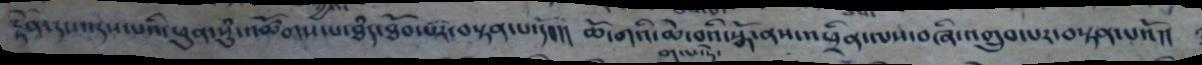རྟེན་དང་འདས་པའི་ཕུན་སུཾ་འཚོགས་པ་ཐཾད་ཐོབ་པར་བསྟན་པ་དང་།།  ཆོ་གའི་ཆེ་བའི་སྒོ་ནས་འཕྲིན་ལས་བཞི་འགྲུབ་པར་བསྟན་པའོ།།
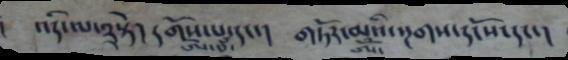།  འདི་ལ་༢སྟེ།  དགོས་པ་དང་།  གཏོར་མའི་སྔགས་དངོས་དང་།
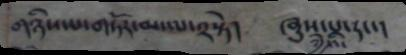གཉིས་པ་གཏོར་མ་ལ་༢སྟེ།  ཞུས་པ་དང་།
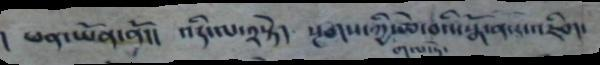།  ཕན་ཡོན་ནོ།།  འདི་ལ་༢སྟེ།  སྔགས་ཀྱི་ཆེ་བའི་སྒོ་ནས་འཇིག་
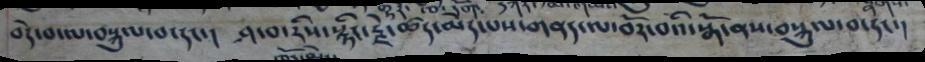བདེ་བ་ལ་བསྐུལ་བ་དང་།  ཤ་བ་རིས་སྙིང་རྗེ་ཚད་མེད་པས་གནད་ལ་བོར་བའི་སྒོ་ནས་བསྐུལ་བ་དང་།
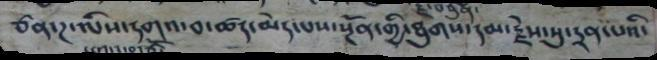ཙན་ཌ་ལིས་དགའ་བ་ཚད་མེད་པས་སྔོན་གྱི་ཐུགས་དམ་རྗེས་སུ་དྲན་པའི་
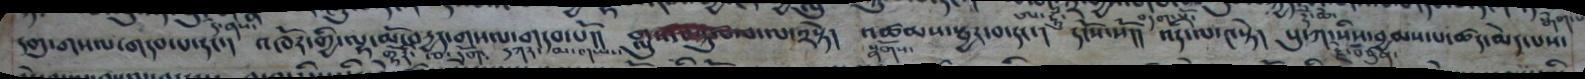དགུ་གསལ་གདབ་པ་དང་། འཁོར་གྱི་ལྷ་མོ་བདྱད་གསལ་གདབ་པོ།།  གླུས་བསྐུལ་བ་ལ་༢སྟེ།  འཚམས་སྦྱར་བ་དང་། དངོས་སོ།།  འདི་ལ་༤སྟེ།  སུ་ཀ་སིས་རྗེ་བཙུན་བྱམས་པ་ཚད་མེད་པས་
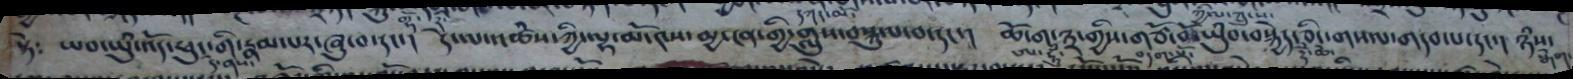སྟེ༴  ཡབ་ཡུཾ་འོད་ཕུང་གི་རྣམ་པར་ཞུ་བ་དང་།  དེ་ལ་འཚཾས་ཀྱི་ལྷ་མོ་༤ས་མྱ་ངན་གྱི་གླུས་བསྐུལ་བ་དང་།  ཆོ་ག་༣་གྱིས་གཙོ་བོ་ཡུཾབ་བསྐྱེད་ཅིང་གསལ་གདབ་པ་དང་།  ཉཾས་
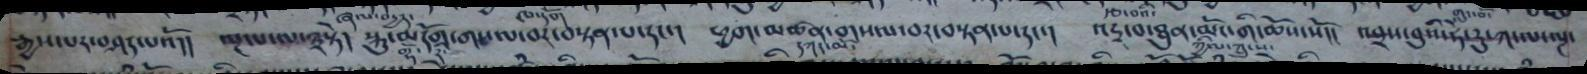རྒྱས་པར་བཤད་པའོ།།  ལྔ་པ་ལ་༣སྟེ།  སྐུ་མདོག་གསལ་བར་བསྟན་པ་དང་།  ཕྱག་མཚན་གསལ་བར་བསྟན་པ་དང་།  འདྲ་བ་ཐུན་མོང་གི་ཆོས་སོ།།  འབྲས་བུའི་ཧེ་རུ་ཀ་ལས་ལྔ་
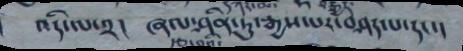འདི་ལ་༢།  ཞལ་ཤིན་ཏུ་རྒྱས་པར་བཤད་པ་དང་།
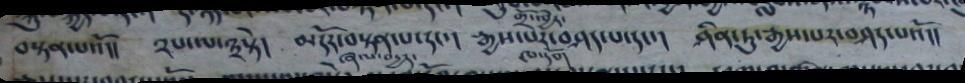བསྟན་པའོ།།  ༢པ་ལ་༣སྟེ།  མདོར་བསྟན་པ་དང་།   རྒྱས་པར་བཤད་པ་དང་།   ཤིན་ཏུ་རྒྱས་པར་བཤད་པའོ།།
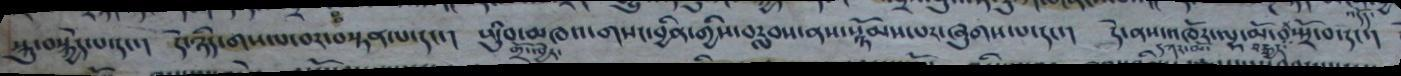སྐུ་བསྐྱེད་པ་དང་།  དེ་ཉིད་གསལ་བར་བསྟན་པ་དང་།  ཡུཾབ་མཁའ་གསང་བྱིན་གྱིས་བརླབས་ནས་སྙོམས་པར་ཞུགས་པ་དང་།  དེ་ནས་འཁོར་ལྷ་མོ་བ་དཀར་མོ་བརྒྱད་སྤྲོ་བ་དང་།
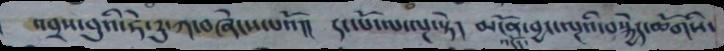འབྲས་བུའི་ཧེ་རུ་ཀ་བཞེངས་པའོ།།  དང་པོ་ལ་ལྔ་སྟེ།  མངོན་བྱང་ལྔའི་བསྐྱེད་ཆོགིས་
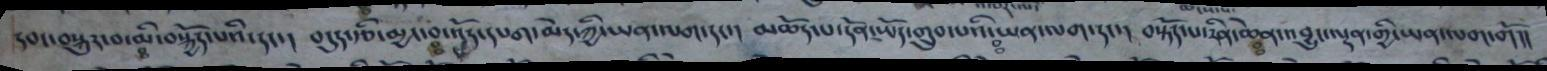དབང་བསྐུར་བ་མི་བསྐྱོད་པའི་དང་། བདུད་རྩི་མྱང་བ་འོད་དཔག་མེད་ཀྱི་ཡན་ལག་དང་། མཆོད་པ་དོན་ཡོད་གྲུབ་པའི་ཡན་ལག་དང་། བསྟོད་པ་རིན་ཆེན་འབྱུང་ལྡན་གྱི་ཡན་ལག་གོ།།
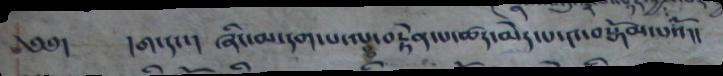༄༅། །ག་དང་། ཞིང་མ་དག་པ་ལ་བརྟེན་པ་ཚད་མེད་པ་༤་བསྒོམ་པའོ།།
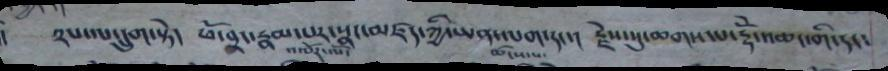།  ༢པ་ལ་དྲུག་སྟེ།  ཕོ་བྲང་རྣམ་པར་སྣང་མཛད་ཀྱི་ཡན་ལག་དང་།  རྗེས་སུ་ཆགས་པ་རྡོེ་འཆང་གིས་དང༴
